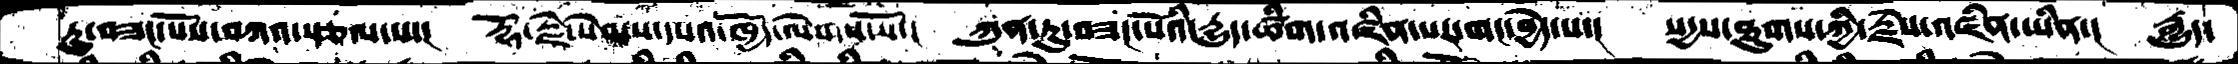ཏུ་བཟང་པོས་བཀའ་སྩལ་པ་།  རྡོ་རྗེ་སེམས་དཔའ་ཁྱོད་ལེགས་སོ་།  ཀུན་ཏུ་བཟང་པོའི་དྱུད་ཚིག་འཛིན་པར་གང་བྱེད་པ་།  སདྱས་ཐུགས་ཀྱི་རྗེས་འཛིན་ཡིན་།  རྒྱུད་
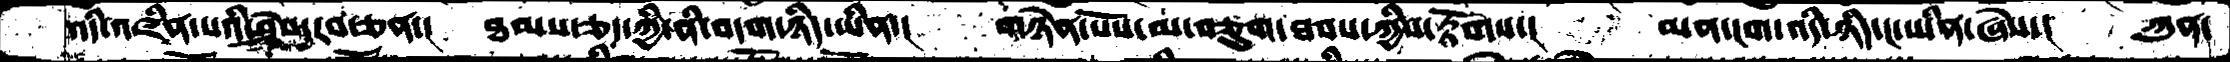འདི་འཛིན་པའི་ཤེས་རབ་ཅན་།  ཐམས་ཅད་ཀྱི་ནི་བདག་ཉིད་ཡིན་།  གཉེན་པོས་མ་བཅུག་ཐབས་ཀྱིས་རྟོགས་།   མན་ངག་འདི་ཉིད་ང་ཡིན་ཞེས་།  ཀུན་
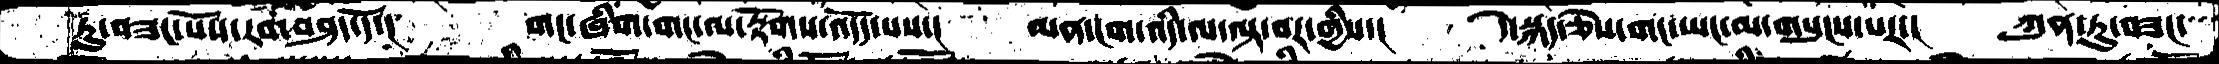ཏུ་བཟང་པོས་རབ་བཤད་དོ་།  གང་ཞིག་གང་ལ་རྟོགས་འདོད་པས་།  མན་ངག་འདི་ལ་ལྟ་བར་གྱིས་།  དེ་སྐད་ཅེས་གང་ཡང་མ་གསུངས་པར་།  ཀུན་ཏུ་བཟང་
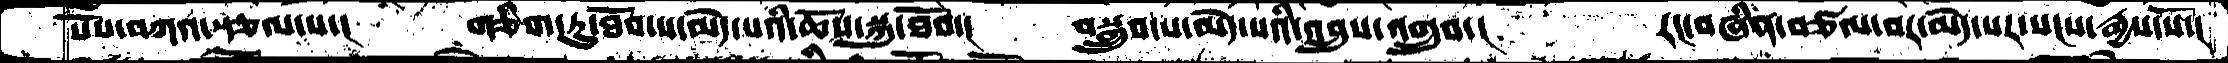པོས་བཀའ་སྩལ་པ་།  གཅིག་ཏུ་ཐོབ་པ་མེད་པའི་ཆོས་སྐུ་ཐོབ་།  བསྒྲུབ་པ་མེད་པའི་འབྲུས་འགྲུབ་།   རང་བཞིན་བཙལ་བར་མེད་པར་སངས་རྒྱས་སོ་།
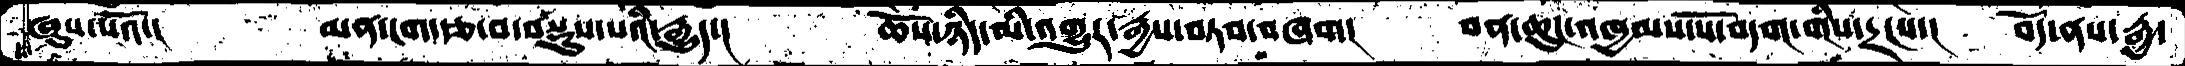ཞུས་པའོ་།   མན་ངག་རྩ་བ་བསྡུས་པའི་རྒྱུད་།  ཆོས་ཉིད་མི་འགྱུར་རྒྱས་བཏབ་བཞག།  བན་ཆུང་འཁྱམས་པོ་བདག་གིས་དྲངས་།  བོད་ནས་རྒྱ་
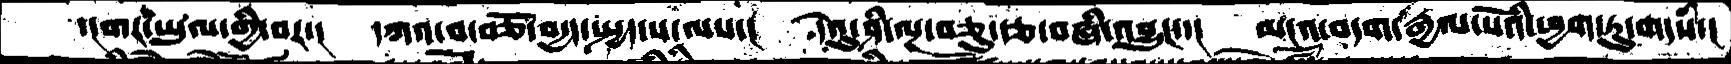་།གར་ཡུལ་གྱི་བར་།  དཀའ་བ་བཅོ་བདྱད་སྤྱད་པ་ལས་།  དེའུ་ཤི་ལྔ་བཅུ་རྩ་བཞི་འབྱུང་་།  མངའ་བདག་རྒྱལ་པོའི་ཕྱག་ཏུ་གདསཾ་།
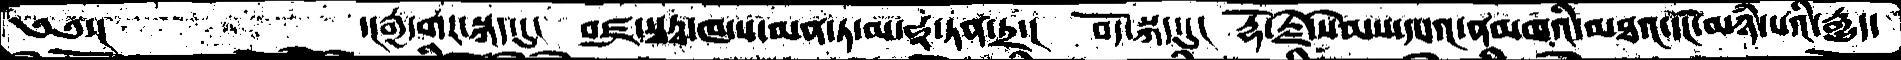༄༅་།       ་།རྒྱ་གར་སྐད་དུ།   བཛྲ་སྭཏྭ་ཁ་ས་མན་ཏ་མ་ཧཱ་ཏན་ཏྲ་།  བོད་སྐད་དུ།  རྡོ་རྗེ་སེམས་དཔའ་ནམཁའི་མཐའ་དང་མཉཾ་པའི་རྒྱུད་
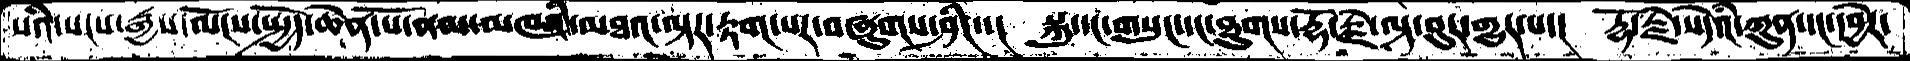པའི་སངས་རྒྱས་ལོངས་སྤྱོད་ཆེན་པོ་ནམ་མཁའི་མཐའ་ལྟར་རྟག་པར་བཞུགས་ཤིང་་།  སྐུ་དང་གསུང་དང་ཐུགས་རྡོ་རྗེ་ལྟ་བུར་གྱུར་པ་།  རྡོ་རྗེ་སེཾདའི་ཀུན་དང་དབྱེར་
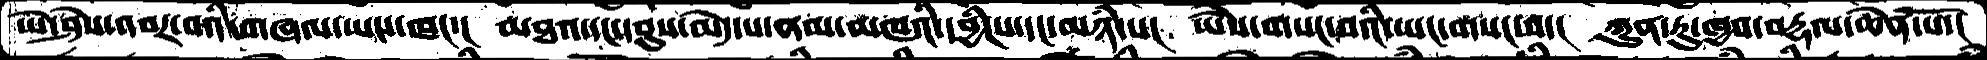ཡེ་ཤེས་འབར་བའི་གཞལ་ཡས་ཁང་།  མཐའ་དང་དབུས་མེད་པ་ནམ་མཁའི་དབྱིངས་དང་མཉཾ་པ།  ཡཻས་གསང་བའི་ཡང་གསང་བ་།  ཀུན་ཏུ་ཁྱབ་བརྡལ་ཆེན་པོ་།
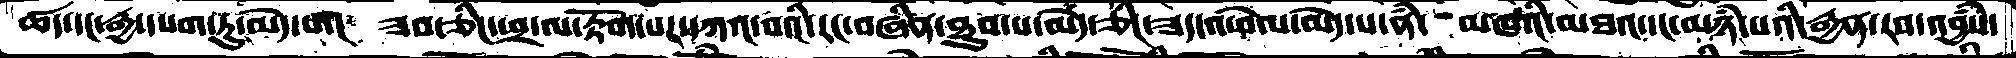ཚད་དང་རྒྱ་དཔག་ཏུ་མེད་པ་།  ཟབ་ཅིང་ཕྲ་ལ་རྟོག་པར་དཀའ་བའི་རང་བཞིན་ཐུབ་པ་མེད་ཅིང་ཟད་འཕེལ་མེད་པ་ནི་  མཁའི་མཐའ་དང་མཉཾ་པའི་རྒྱན་རབ་འབྱཾས་
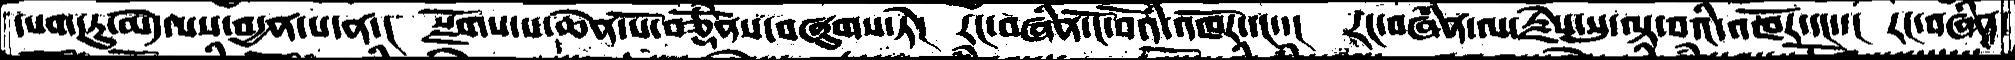དཔག་ཏུ་མེད་པས་བདྱན་པ་ན་།  སྫོགས་པ་ཆེན་པོ་བཅྡོཾནས་བཞུགས་ཏེ།  རང་བཞིན་ངོ་བོའི་འཁོར་དང་་།  རང་བཞིན་ལ་རྗེས་སུ་ལྟ་བའི་འཁོར་དང་་།  རང་བཞིན་
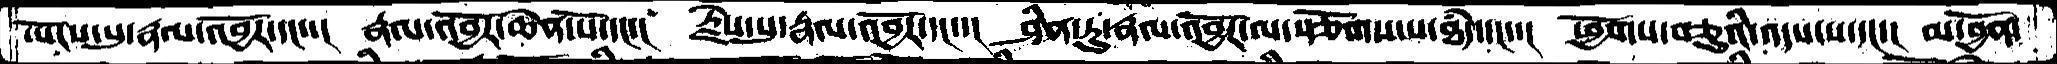ཡོངས་སུ་རྣལ་འབྱོར་དང་་།  རྣལ་འབྱོར་ཆེན་པོ་དང་།  རྗེས་སུ་རྣལ་འབྱོར་དང་་།  ཤིན་ཏུ་རྣལ་འབྱོར་ལ་སྩོགས་པ་ཐཾད་དང་་།  ཕྱོགས་བཅུའི་འདས་པ་དང་།  མ་བྱོན་
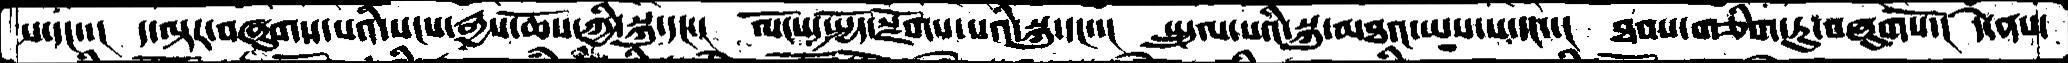པ་དང་་།  ད་ལྟར་བཞུགས་པའི་སངས་རྒྱས་ཆོས་ཀྱི་སྐུ་དང་།  ལོངས་སྤྱོད་སྫོགས་པའི་སྐུ་དང་་།  སྤྲུལ་པའི་སྐུ་མཐའ་ཡས་པ་དང་་།  ཐབས་གཅིག་ཏུ་བཞུགསོ་།  དེ་ནས་
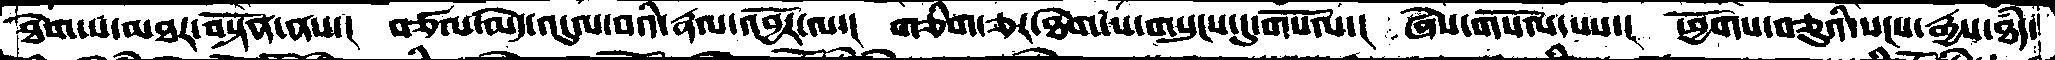ཐེག་པ་མཐར་བསྟོན་ནས་།  བཙལ་མེད་འདུལ་བའི་རྣལ་འབྱོར་ལ་།  གཅིག་ཅར་ཐེག་པ་གསུངས་དུ་གསོལ་།  ཞེས་གསོལ་པས་།  ཕྱོགས་བཅུའི་སངས་རྒྱས་ཐཾད་
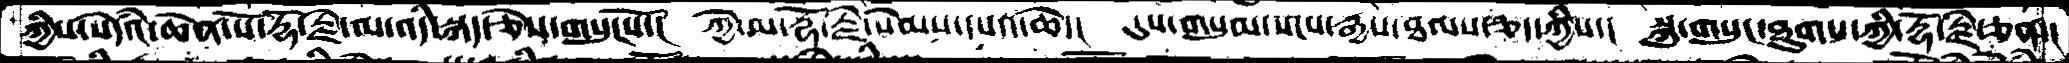ཀྱིས་སེཾདའ་ཆེན་པོ་རྡོ་རྗེ་ལ་འདི་སྐད་ཅེས་གསུངསོ་།  ཀྱེ་མ་རྡོ་རྗེ་སེམས་དཔའ་ཆེ་།  དུས་གསུམ་སངས་རྒྱས་ཐམས་ཅད་ཀྱི་།  སྐུ་གསུང་ཐུགས་ཀྱི་རྡོ་རྗེ་ཅན་།
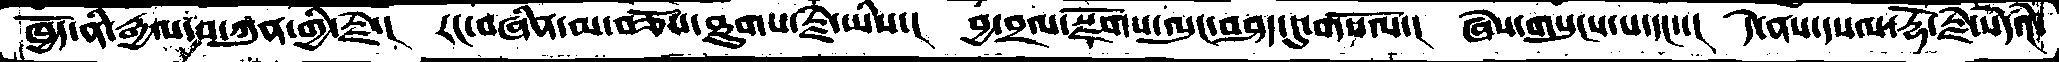ཁྱོད་ནི་རྒྱལ་བ་ཀུན་གྱི་རྗེ་།  རང་བཞིན་མ་བཅོས་ཐུགས་རྗེ་ཡིས་།  བྱ་བྲལ་སྫོགས་ལུང་བཤད་དུ་གསོལ་།  ཞེས་གསུངས་པ་དང་་།  དེ་ནས་དཔལ་རྡོ་རྗེ་སེཾདའ་
